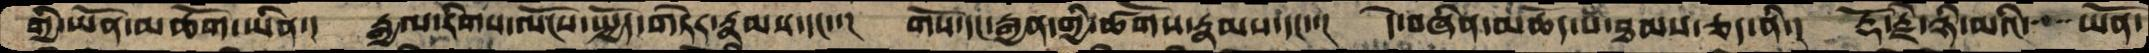གྱི་ཡོན་མཆོག་ཡིན་།  རྒྱལ་རིགས་ལོངས་སྤྱོད་གཏེར་རྣམས་དང་་།  གསོ་དང་རྒྱན་གྱི་ཚོགས་རྣམས་དང་་།  དེ་བཞིན་མཆོད་པ་ཐམས་ཅད་ནི་།  རྡོ་རྗེ་ཉི་མའི་  ཡོན་
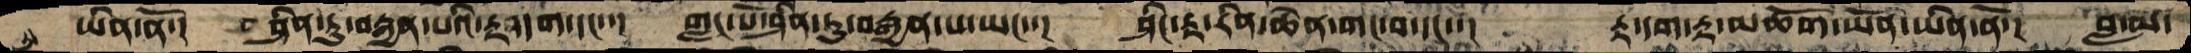ཡིན་ནོ་།  ཤིན་ཏུ་བརྒྱན་པའི་རྟ་དག་དང་་།  གླང་པོ་ཤིན་ཏུ་བརྒྱན་པ་ཡང་་།  ཤིང་རྟ་རིན་ཆེན་གང་བ་དང་་།  རྟ་དག་རྟ་མཆོག་ཡོན་ཡིན་ནོ་།  བླ་མ་
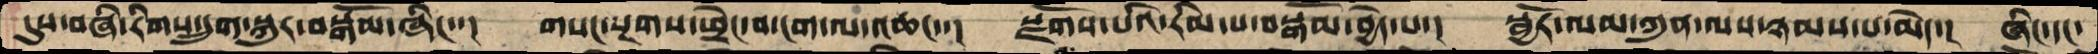དུས་བཞི་རིགས་དྲུག་སྐུར་བསྒོམ་ཞིང་་།  གསང་སྔགས་ཕྲེང་བ་ངག་ལ་འཆང་་།  སྫོགས་པའི་རིམ་པ་བསྒོམ་བྱེད་པ་།  སྦྱོར་ལམ་ཀུན་ལས་ཉམས་པ་མེད་།  ཞིང་དང་
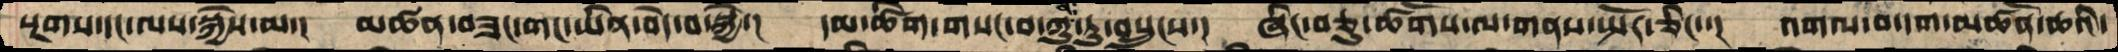སྔགས་དང་ལས་སྐྱེས་མ་། མཚན་བཟང་གང་ཡིན་བདེ་བ་སྐྱེ་། དམ་ཚིག་གསང་བ་ཀུན་ཏུ་བསྲུངས་། ཞིང་བཅུ་ཚོགས་ལ་གནས་སྤོར་ཅིང་་། འགལ་བ་དག་མཚོན་ཆའི་
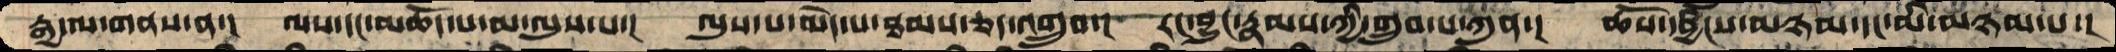རྒྱ་ལ་གནས་ན་།  ལས་དང་མཆོད་པ་མ་ལུས་པ་།  ལུས་པ་མེད་པ་ཐམས་ཅད་འགྲུབ་།  རང་བྱུང་རྣམས་ཀྱི་གྲུབ་པ་ཀུན་།  ཆོས་དབྱིངས་མཉམ་དང་མི་མཉམ་པ་།
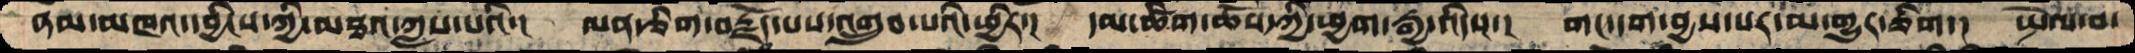ནམ་མཁའ་དབྱིངས་ཀྱི་མཐའ་ཀླས་པའི་།  ལན་ཅིག་བརྗོད་པས་འགྲུབ་པའི་ཕྱིར་།  དམ་ཚིག་ཆོས་ཀྱི་ཕྱག་རྒྱ་འདིས་།  གང་དག་བྱས་པར་མ་གྱུར་ཅིག་།  སྤེལ་བ་
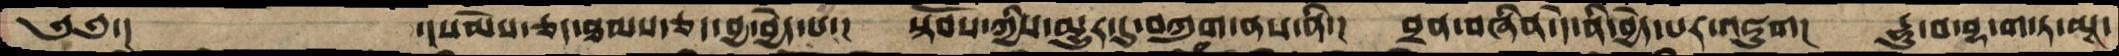༄༅་།    ་།སེམས་ཅན་ཐམས་ཅད་བྱ་བྱེད་པ་།  སྟོབས་ཀྱིས་མྱུར་དུ་བཀུག་ནས་ནི་།  བྲན་བཞིན་དེ་ནི་བྱེད་པར་འཇུག།  དྷུ་བ་བྷ་ག་ཏ་མཱ་
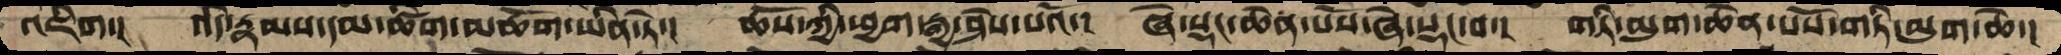འཇིག་།  འདི་རྣམས་དམ་ཚིག་མཆོག་ཡིན་ཏེ་།  ཆོས་ཀྱི་ཕྱག་རྒྱ་ཤེས་པའོ་།  ཞེ་སྡང་ཆེན་པོས་ཞེ་སྡང་བ་།  གཏི་མུག་ཆེན་པོས་གཏི་མུག་ཆེ་།
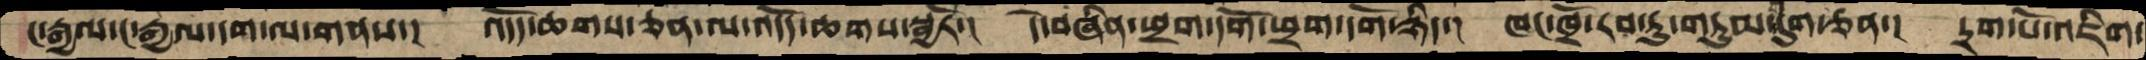ང་རྒྱལ་ང་རྒྱལ་དག་ལ་གནས་།  འདོད་ཆགས་ཅན་ལ་འདོད་ཆགས་སྦྱོར་།  དེ་བཞིན་ཕྲག་དོག་ཕྲག་དོག་ཉིད་།  ཁང་ཁྲོ་རབ་ཏུ་གཏུམ་དུག་ཅན་།  དྲག་པོ་འཇིག་
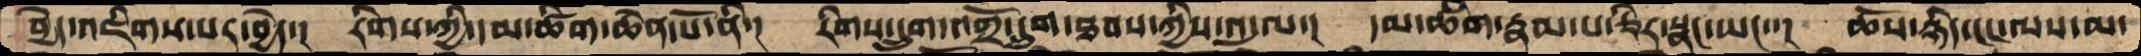བྱེད་འཇིགས་པར་བྱེད་།  རིགས་ཀྱི་དམ་ཚིག་ཆེན་པོ་ནི་།  རིགས་དྲུག་འགྲོ་དྲུག་ཐབས་ཀྱིས་འདུལ་།་  དམ་ཚིག་རྣམ་པ་ཅིར་སྣང་ཡང་་།  ཆོས་ཉིད་ངང་ལས་མ་
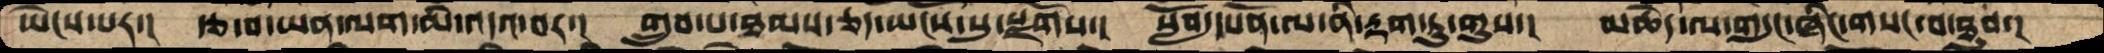ཡེངས་པར་།  རྩ་བ་ཡན་ལག་མི་འདའ་བར་།  གྲུབ་པ་ཐམས་ཅད་ཡོངས་སུ་སྫོགས་།  སློབ་དཔོན་ལ་ནི་རྟག་ཏུ་གུས་།  མཆེད་ལ་གདུང་ཞིང་གསང་བ་ཐུབ་།
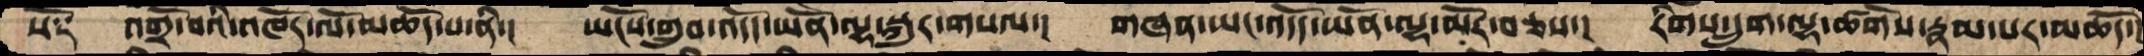སོ༑  འགྲོ་བའི་འཁོར་ལོ་མཆོད་པ་ནི་།  ཡོངས་གྲུབ་འདོད་ཡོན་ལྷ་སྐུར་གསལ་།  གཞན་ཡང་འདོད་ཡོན་ལྷ་མོར་བཅས་།  རིག་དྲུག་ལྷ་ཚོགས་རྣམ་པར་མཆོད་།
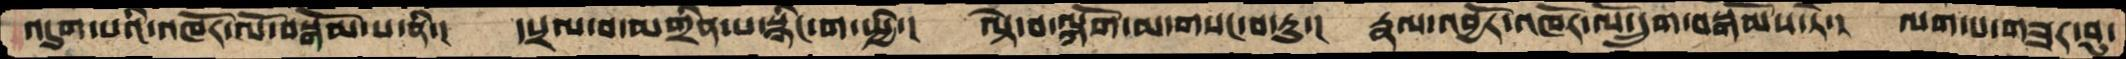འདུག་པའི་འཁོར་ལོ་བསྒོམ་པ་ནི་།  དཔྲལ་བ་མགྲིན་པ་སྙིང་ག་སྤྱི་།  ལྟེ་བ་ལྐོག་མ་གསང་བ་རུ་།  རྣལ་འབྱོར་འཁོར་ལོ་དྲུག་བསྒོམས་ཏེ་།  ལག་པ་གཟར་བུ་
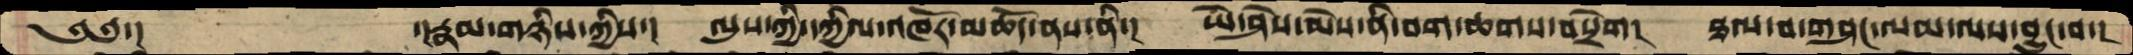༄༅་།    ་།རྣམ་གཉིས་ཀྱིས་།  ལུས་ཀྱི་དཀྱིལ་འཁོར་མཆོད་ནས་ནི་།  ཡེ་ཤེས་མེས་ནི་བག་ཆགས་བསྲེག།  ཐལ་བ་གཤང་ལམ་ལས་བྱུང་བ་།
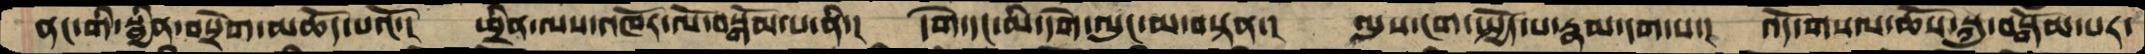ནང་གི་སྦྱིན་བསྲེག་མཆོད་པའོ་།  ཕྲིན་ལས་འཁོར་ལོ་བསྒོམ་པ་ནི་།  དགེ་དང་མི་དགེ་ལུང་མ་བསྟན་།  ལུས་ངག་སྤྱོད་པ་རྣམ་དག་པ་།  འདོ་གསལ་ཆོས་སྐུ་བསྒོམ་པར་
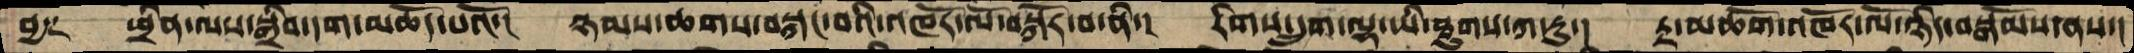བྱ༑   ཕྲིན་ལས་སྒྲིབ་དག་མཆོད་པའོ་།  ཉམས་ཆགས་བསྐང་བའི་འཁོར་ལོ་བསྐོར་བ་ནི་།  རིགས་དྲུག་ལྷ་ཡི་ཐུགས་ཀ་རུ་།  རྟ་མཆོག་འཁོར་ལོ་ཉིད་བསྒོམས་ནས་།
